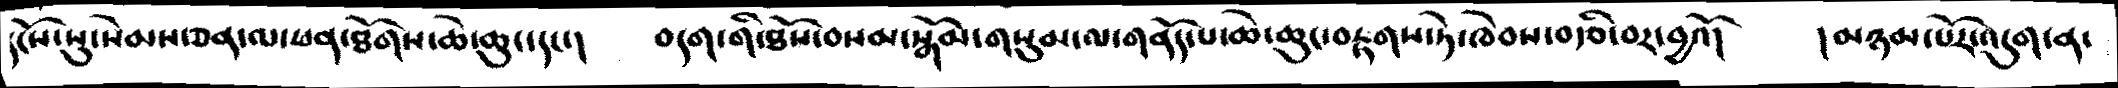དངོས་སུ་སེམས་ཅན་ལ་ཕན་ཐོགས་ཆེ་ཆུང་དང་།   བདག་གི་ཐོས་བསམ་སྒོམ་གསུམ་ལ་གནོད་པ་ཆེ་ཆུང་བརྟགས་ཏེ་ཁེབས་བརྩི་བར་བྱའོ།   །མཉམ་པོར་འདུག་ན་
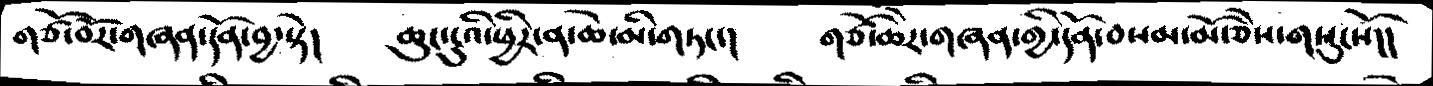གཙོ་བོར་གཞན་དོན་བྱ་སྟེ།    ཆུང་ངུའི་ཕྱིར་ན་ཆེ་མི་གཏང་།   གཙོ་ཆེར་གཞན་གྱི་དོན་བསམ་མོ་ཅེས་གསུངསོ།།
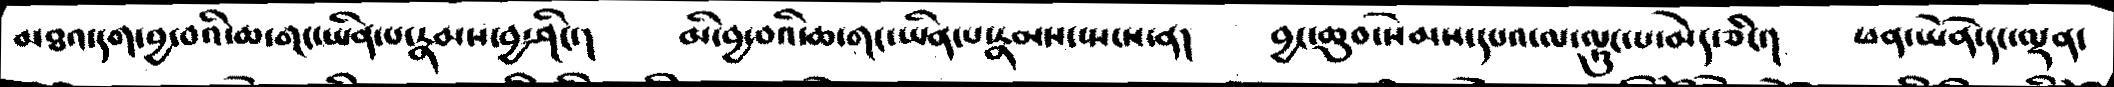མཐའ་དག་བྱ་བའི་ཆ་གང་ཡིན་པ་རྣམས་བྱ་ཤིང་།   མི་བྱ་བའི་ཆ་གང་ཡིན་པ་རྣམས་སྤངས་ན།    བྱང་ཆུབ་སེམས་དཔའ་ལ་ལྟུང་པ་མེད་ཅིང་།   ཕན་ཡོན་དང་ལྡན་
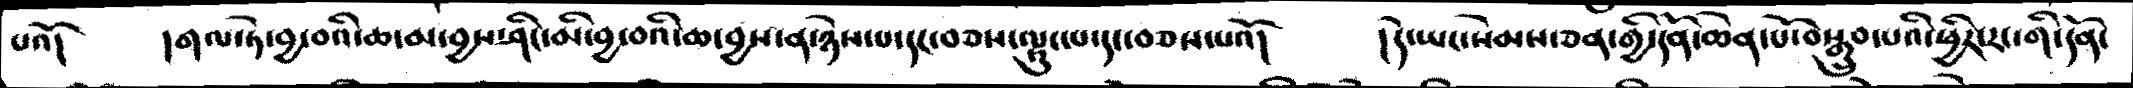པའོ།   །གལ་ཏེ་བྱ་བའི་ཆ་མ་བྱས་ཤིང་མི་བྱ་བའི་ཆ་བྱས་ན་ཉེས་པ་དང་བཅས་ལྟུང་པ་དང་བཅས་པའོ།    །དེ་ཡང་སེམས་ཅན་གྱི་དོན་ཆེན་པོ་བསྒྲུབ་པའི་ཕྱིར་རང་གི་དོན་
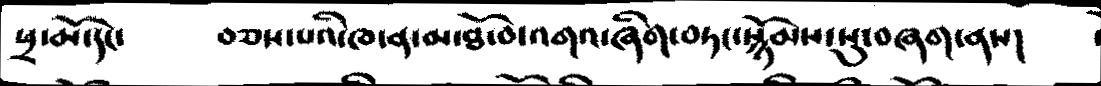ཕྲ་མོ་དང་      བཅས་པའི་ཁ་ན་མ་ཐོ་བ་འགའ་ཞིག་བཏང་སྙོམས་སུ་བཞག་ནས།
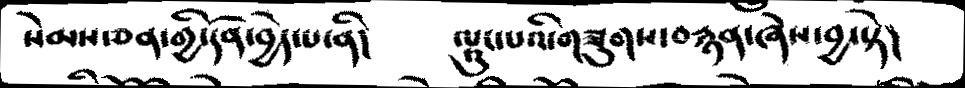སེམས་ཅན་གྱི་དོན་བྱེད་པ་ནི།      ལྟུང་པའི་གཟུགས་བརྙན་ཞེས་བྱ་སྟེ།
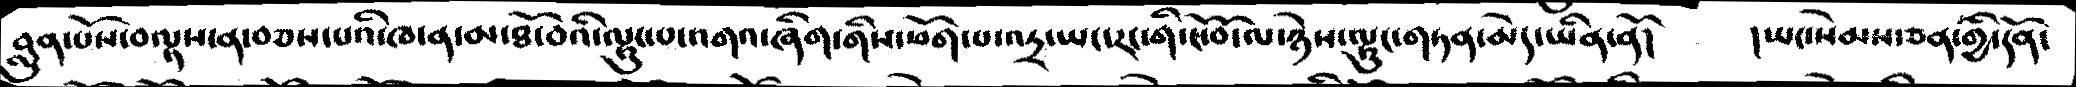བླུན་པོས་བལྟས་ན་བཅས་པའི་ཁ་ན་མ་ཐོ་བའི་ལྟུང་བ་འགའ་ཞིག་གིས་ཕོག་པ་འདྲ་ཡང་རང་གི་ངོ་བོ་ལ་ཉེས་ལྟུང་གཏན་མེད་ཡིན་ནོ།   །ཡང་སེམས་ཅན་གྱི་དོན་
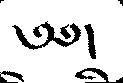༄༅།
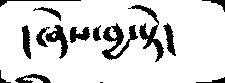།ཞེས་བྱ་སྟེ།
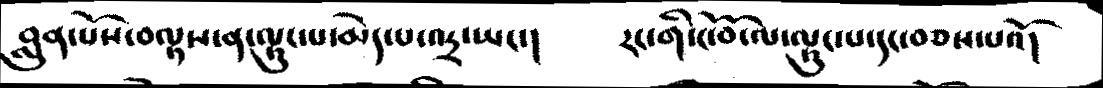བླུན་པོས་བལྟས་ན་ལྟུང་པ་མེད་པ་འདྲ་ཡང་།    རང་གི་ངོ་བོ་ལ་ལྟུང་པ་དང་བཅས་པའོ།
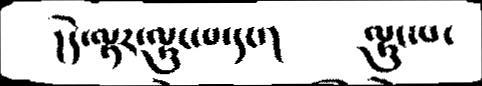།དེ་ལྟར་ལྟུང་པ་དང་།    ལྟུང་པ་
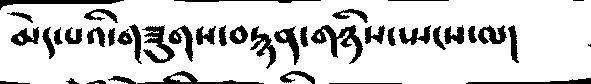མེད་པའི་གཟུགས་བརྙན་གཉིས་སྤངས་ལ།
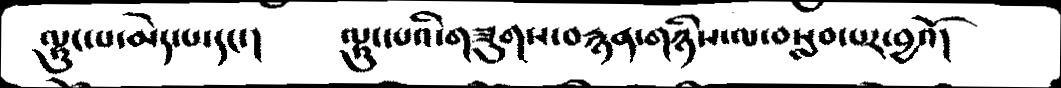ལྟུང་པ་མེད་པ་དང་།    ལྟུང་པའི་གཟུགས་བརྙན་གཉིས་ལ་བསླབ་པར་བྱའོ།
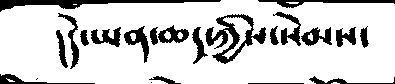།དེ་ཡན་ཆད་ཀྱིས་སེམས་
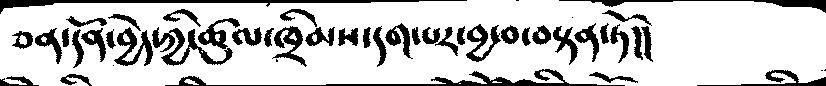ཅན་དོན་བྱེད་ཀྱི་ཚུལ་ཁྲིམས་དག་པར་བྱ་བ་བསྟན་ཏོ།།
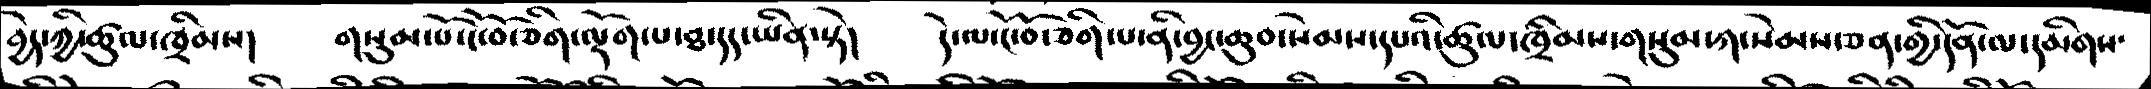བྱེད་ཀྱི་ཚུལ་ཁྲིམས།   གསུམ་པོ་ངོ་བོ་ཅིག་ལྡོག་པ་ཐ་དད་ཡིན་སྟེ།    དེ་ལ་ངོ་བོ་ཅིག་པ་ནི་བྱང་ཆུབ་སེམས་དཔའི་ཚུལ་ཁྲིམས་གསུམ་ཀ་སེམས་ཅན་གྱི་དོན་ལ་དམིགས་
